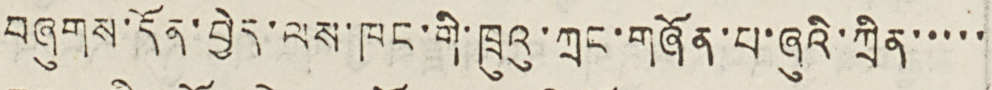བཞུགས་དོན་བྱེད་ལས་ཁང་གི་ཁྲུའུ་ཀྲང་གཞོན་པ་ཞུའི་ཀྲིན་་་་་
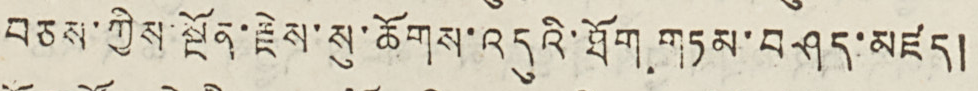བཅས་ཀྱིས་སྔོན་རྗེས་སུ་ཆོགས་འདུའི་ཐོག གཏམ་བཤད་མཛད།
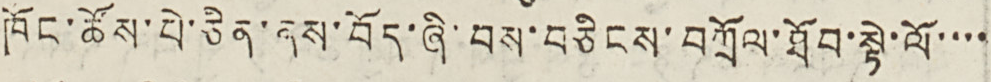ཁོང་ཚོས་པེ་ཅིན་ནས་བོད་ཞི་བས་བཅིངས་བཀྲོལ་ཐོབ་སྟེ་ལོ་་་་
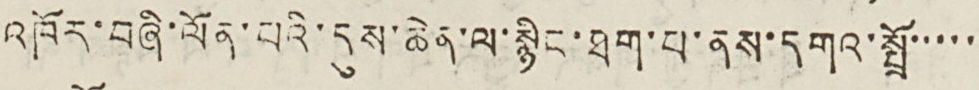འཁོར་བཞི་ལོན་པའི་དུས་ཆེན་ལ་སྙིང་ཐག་པ་ནས་དགའ་སྤྲོ་་་་་
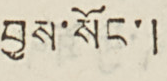བྱས་སོང་།
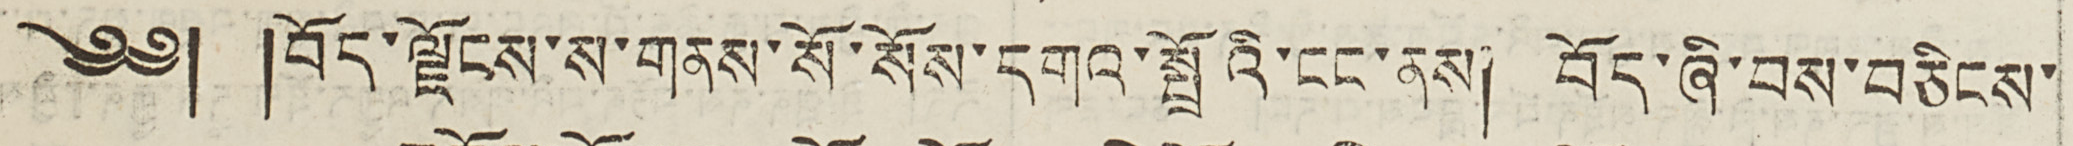༄༅། །བོད་ལྗོངས་གནས་སོ་སོས་དགའ་སྤྲོའི་ངང་ནས། བོད་ཞི་བས་བཅིངས་
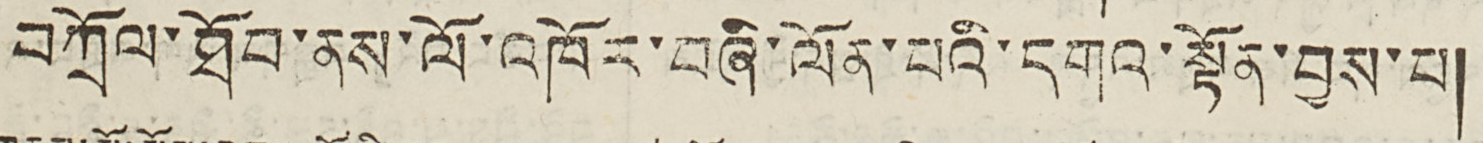བཀྲོལ་ཐོབ་ནས་ལོ་འཁོར་བཞི་ལོན་པའི་དགའ་སྟོན་བྱས་པ།
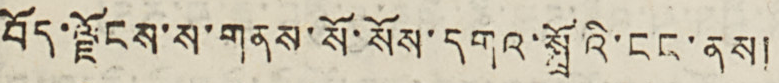བོད་ལྗོངས་ས་གནས་སོ་སོས་དག་སྤྲོའི་ངང་ནས།
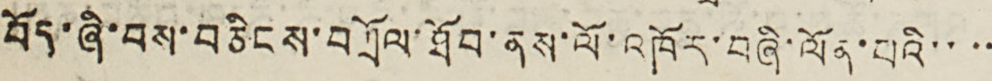བོད་ཞི་བས་བཅིངས་བཀྲོལ་ཐོབ་ནས་ལོ་འཁོར་བཞི་ལོན་པའི་་་་
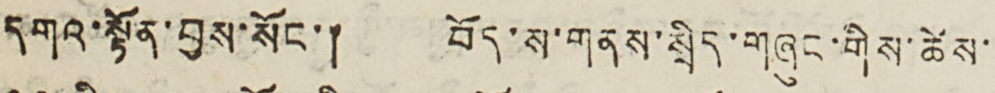དགའ་སྟོན་བྱས་སོང་། བོད་ས་གནས་སྲིད་གཞུང་གིས་ཚེས་
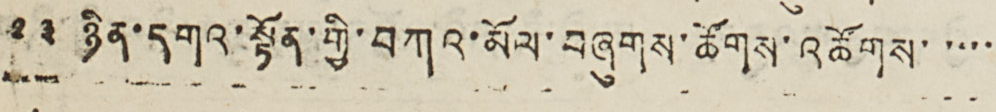༢༣ ཉིན་དགའ་སྟོན་གྱི་བཀའ་མོལ་བཞུགས་ཚོགས་འཚོགས་་་་་
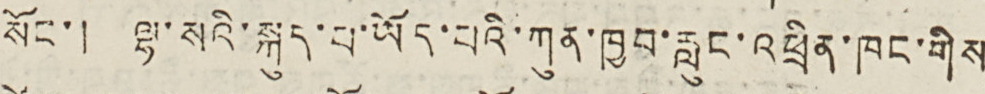སོང་། ལྷ་སའི་སྐུད་པ་ཡོད་པའི་ཀུན་ཁྱབ་རླུང་འཕྲིན་ཁང་གིས
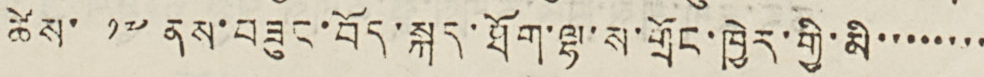ཚེས་ ༡༧ ནས་བཟུང་བོད་སྐད་ཐོག་ལྷ་ས་གྲོང་ཁྱེར་གྱི་མི་་་་་་་་
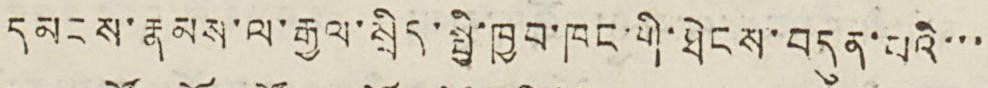དམངས་རྣམས་ལ་རྒྱལ་སྲིད་སྤྱི་ཁྱབ་ཁང་གི་ཐེངས་བདུན་པའི་་་
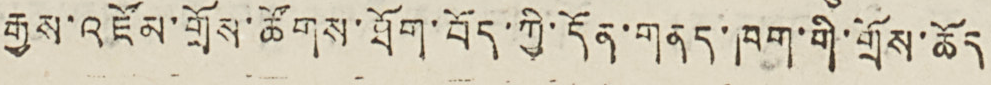རྒྱས་འཛོམ་གྲོས་ཚོགས་ཐོག་བོད་ཀྱི་དོན་གནད་ཁག་གི་གྲོས་ཆོད
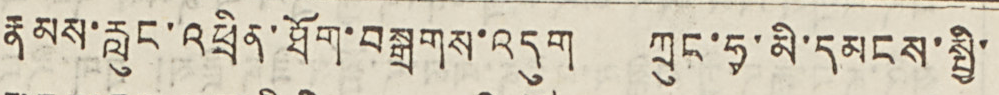རྣམས་རླུང་འཕྲིན་ཐོག་བསྒྲགས་འདུག་ ཀྲུང་ཧྭ་མི་དམངས་སྤྱི་
